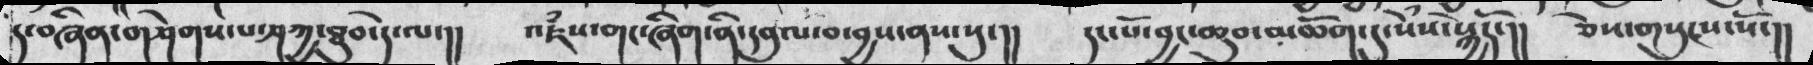ད་བཞུན་གཤེགས་པ་ཤཀྱ་ཐུབ་དེ་ལ་།།  འཇཾས་གང་ཞིག་ནི་དབུལ་བ་བྱས་ནས་སུ་།།  དང་པོ་བྱང་ཆུབ་མཆོག་དུ་སེཾས་སྐྱེདོ་།།  ཅེས་གསུངས་སོ་།།
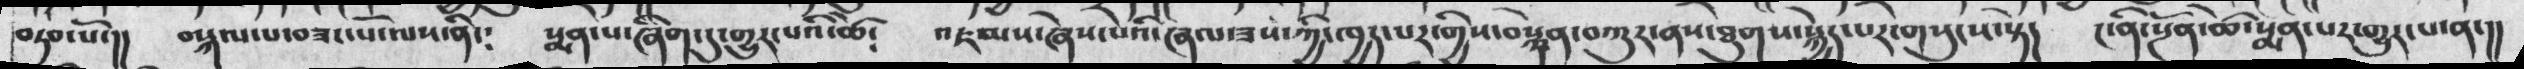བཏབ་སོ་།།  བསྐལ་པ་བཟང་པོ་ལས་ནི་༴  སྨན་པ་ཞིན་དུ་གྱུར་པའི་ཚེ༴  འཇམས་ཞེས་པའི་ཞལ་ཟས་ཀྱི་ཁྱད་པར་གྱིས་བསྙེན་བཀུར་ནས་ཐུགས་སྐྱེད་པར་གསུངས་སྟེ།  ༤ནི་སྔོན་ཚེ་སྨན་པར་གྱུར་པ་ན་།།
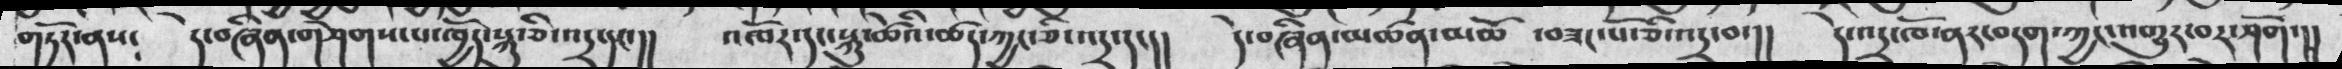གཏོར་ནས༴  དེ་བཞིན་གཤེགས་པ་ཁྱོད་སྐུ་ཅི་འདྲ་དང་།།  འཁོར་དང་སྐུ་ཚེའི་ཚད་ཀྱང་ཅི་འདྲ་དང།།  དེ་བཞིན་མཚན་མཆོ་བཟང་པོ་ཅི་འདྲ་བ་།།  དེ་འདྲ་ཁོ་ནར་བདག་ཀྱང་འགྱུར་བར་ཤོག་།།
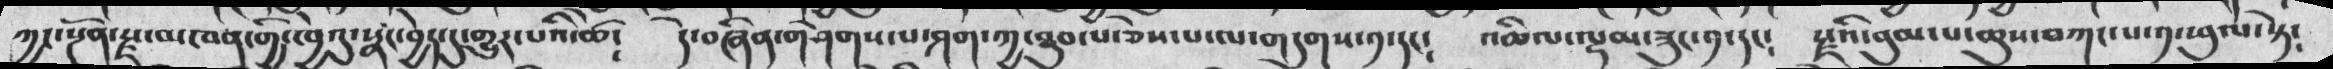ཀྱང་སྔོན་རྫ་མ་ཁན་གྱི་ཁྱེའུ་སྣང་བྱེད་དུ་གྱུར་པའི་ཚེ༴  དེ་བཞིན་གཤེགས་པ་ཤག་ཀྱ་ཐུབ་པ་ཅེས་པ་ལ་གདུགས་༡་དང༴  འཆིལ་ལྡམ་ཟུང་༡་དང༴  རྫའི་བུམ་པ་ཆུས་བཀང་པ་༡་ཕུལ་སྟེ༴
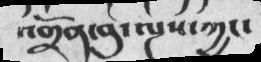འགྲོན་བུ་ལྔས་ཀྱང་
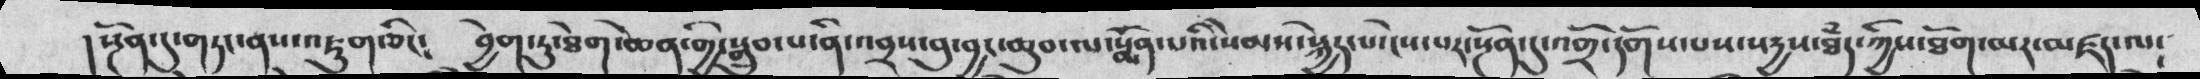།སྔོན་དུ་གཏང་ནས་འཇུག་ཅིང༴  བྱེག་ཏུ་ཐེག་ཆེན་གྱི་སྒྲུབ་པ་ནི་འབྲས་བུ་བྱང་ཆུབ་ལ་སྨོན་པའི་སེམས་སྐྱེད་པ་ངེས་པར་སྔོན་དུ་འགྲོ་དགོས་པས་སདྱས་ཐཾད་ཀྱིས་ཐོག་མར་མཛད་ལ༴
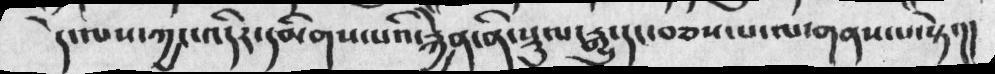དེ་ལས་ཀྱང་འདིར་དམིགས་པའི་རྐྱེན་ནི་སྡུལ་རྒྱུ་དང་བཅས་པ་ལ་གནས་པ་སྟེ་།།
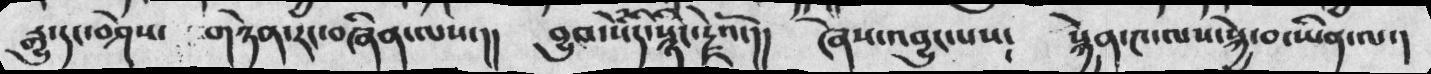རྒྱུ་དང་བཤེས་  གཉེན་རང་བཞིན་ལས་།།  བྱུབ་སེཾདི་སྙིང་རྗེའོ་།།  ཞེས་འབྱུང་པས༴  སྐྱེན་༤་ལས་སྐྱེ་བ་ཡིན་ལ་།
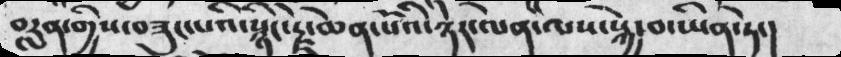བརླན་གྱིས་བཟུང་པའི་སྙིང་རྗེ་ཆེན་པོའི་ཉེར་ལེན་ལས་སྐྱེ་བ་ཡིན་ཏེ་།
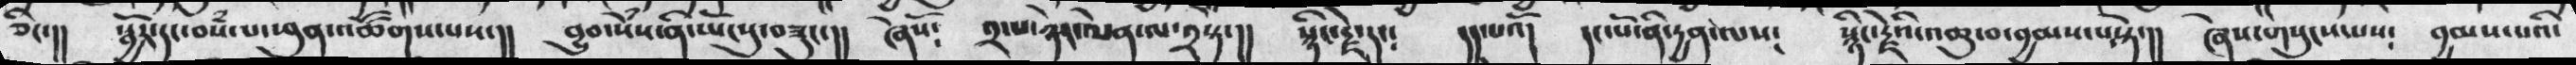ཅེང་།།  སྦྱོང་དང་བསཾ་པ་ཕུན་འཚོགས་པས་།།  བྱུབ་སེཾས་ནི་ཡོངསུ་བཟུང་།།  ཞེསོ༴  ༢་པ་ཉེར་ལེན་ལ་༢་ཏ་།།  སྙིང་རྗེ་དང༴  དད་པའོ།  དང་པོ་ནི་དྱན་ལས༴  སྙིང་རྗེའི་འཆུ་བ་བྱམས་པ་སྟེ་།།  ཞེས་གསུངས་པས༴ བྱམས་པའི་
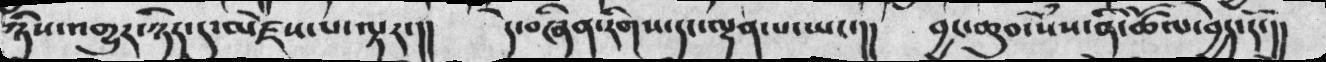ཉིས་འགྱུར་ཉིད་དུ་མཛེས་པ་ལྟར་།།  དེ་བཞིན་རིགས་དང་ལྡན་པ་ཡང་།།  བྱང་ཆུབ་སེཾས་ནི་ཚོལ་བྱེད་དོ་།།
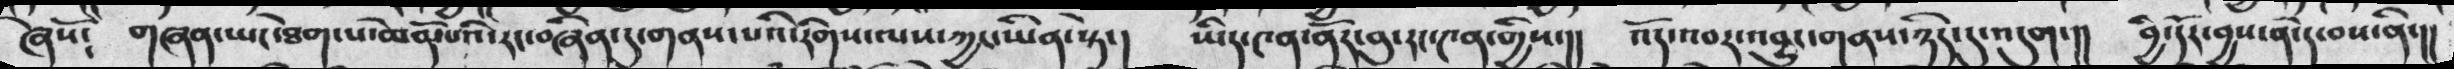ཞེསོ༴  གཞན་ཡང་ཐེག་པ་ཆེན་པོའི་རང་བཞིན་དུ་གནས་པའི་རིགས་ལས་ཀྱང་ཡིན་སྟེ་།  ཡིད་༤ན་ནོར་བུ་རང་༤ན་གྱིས་།།  འོད་འབར་འབྱུང་གནས་ཉིད་དུ་འདུག་།།  བྱི་དོར་བྱས་ན་དེ་བས་ནི་།།
